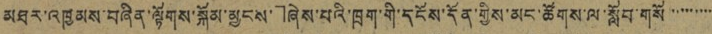མཐར་འཁྱམས་བཞིན་ལྟོགས་སྐོམ་མྱངས་」ཞེས་པའི་ཁྲག་གི་དངོས་དོན་གྱིས་མང་ཚོགས་ལ་སློབ་གསོ་་་་་་་་་་
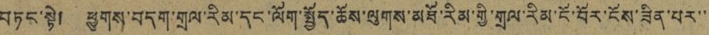བཏང་སྟེ། ཕྱུགས་བདག་གྲལ་རིམ་དང་ལོག་སྤྱོད་ཆོས་ལུགས་མཐོ་རིམ་གྱི་གྲལ་རིམ་ངོ་བོར་ངོས་ཟིན་པར་་
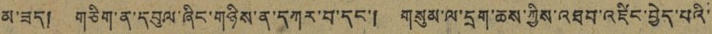མ་ཟད། གཅིག་ན་དབུལ་ཞིང་གཉིས་ན་དཀར་བ་དང་། གསུམ་ལ་དྲག་ཆས་ཀྱིས་འཐབ་འཛིང་བྱེད་པའི་
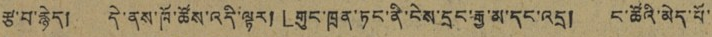རྩ་བ་རྙེད། དེ་ནས་ཁོ་ཚོས་འདི་ལྟར། 「གུང་ཁྲན་ཏང་ནི་ངེས་དང་རྒྱ་མ་དང་འདྲ། ང་ཚོའི་མེད་པོ་
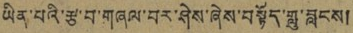ཡིན་པའི་རྩ་བ་གཞལ་བར་ཤེས་ཞེས་བསྟོད་གླུ་བླངས།
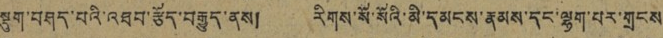སྡུག་བཤད་པའི་འཐབ་རྩོད་བརྒྱུད་ནས། རིགས་སོ་སོའི་མི་དམངས་རྣམས་དང་ལྷག་པར་གྲངས
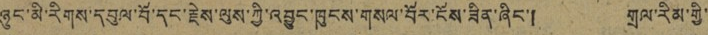ཉུང་མི་རིགས་དབུལ་པོ་དང་རྗེས་ལུས་ཀྱི་འབྱུང་ཁུངས་གསལ་བོར་ངོས་ཟིན་ཞིང་། གྲལ་རིམ་གྱི་
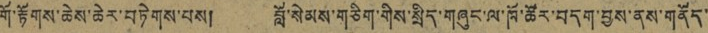གོ་རྟོགས་ཆེས་ཆེར་བཏེགས་པས། བློ་སེམས་གཅིག་གིས་སྲིད་གཞུང་ལ་ཁོ་ཚོར་བདག་བྱས་ནས་གནོད་
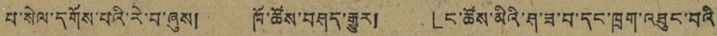པ་སེལ་དགོས་པའི་རེ་བ་ཞུས། ཁོ་ཚོས་བཤད་རྒྱུར། 「ང་ཚོས་མིའི་ཤ་ཟ་བ་དང་ཁྲག་འཐུང་བའི
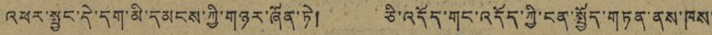འཕར་སྤྱང་དེ་དག་མི་དམངས་ཀྱི་གཉར་ཞོན་ཏེ། ཅི་འདོད་གང་འདོད་ཀྱི་ངན་སྤྱོད་གཏན་ནས་ཁས་
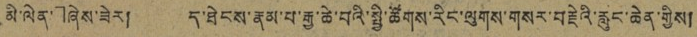མི་ལེན་」ཞེས་ཟེར། ད་ཐེངས་རྣམ་པ་རྒྱ་ཆེ་བའི་སྤྱི་ཚོགས་རིང་ལུགས་གསར་བརྗེའི་རླུང་ཆེན་གྱིས།
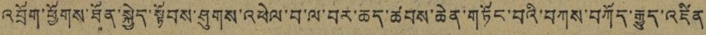འབྲོག་ཕྱོགས་ཐོན་སྐྱེད་སྟོབས་ཤུགས་འཕེལ་བ་ལ་བར་ཆད་ཚབས་ཆེན་གཏོང་བའི་བཀས་བཀོད་རྒྱུད་འཛིན་
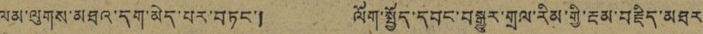ལམ་ལུགས་མཐའ་དག་མེད་པར་བཏང་། ལོག་སྤྱོད་དབང་བསྒྱུར་གྲལ་རིམ་གྱི་རྔམ་བརྗིད་མཐར་
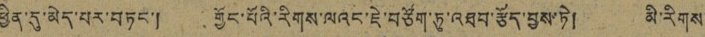ཕྱིན་དུ་མིན་པར་བཏང་། གྱོང་པོའི་རིགས་ལའང་ཇེ་བཙོག་ཏུ་འཐབ་རྩོད་བྱས་ཏེ། མི་རིགས་
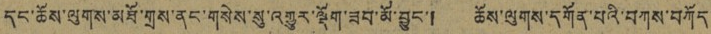དང་ཆོས་ལུགས་མཐོ་གྲས་ནང་གསེས་སུ་འགྱུར་ལྡོག་ཟབ་མོ་བྱུང་། ཆོས་ལུགས་དགོན་པའི་བཀས་བཀོད་
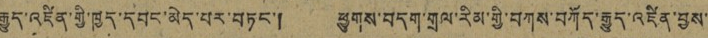རྒྱུད་འཛིན་གྱི་ཁྱད་དབང་མེད་པར་བཏང་། ཕྱུགས་བདག་གྲལ་རིམ་གྱི་བཀས་བཀོད་རྒྱུད་འཛིན་བྱས་
